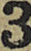3
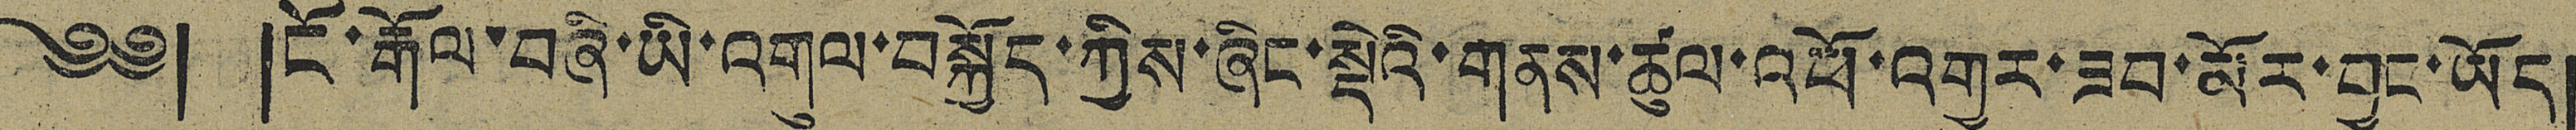༄༅། །ངོ་རྒོལ་བཞི་ཡི་འགུལ་བསྐྱོད་ཀྱིས་ཞིང་སྡེའི་གནས་ཚུལ་འཕོ་འགྱུར་ཟབ་མོར་བྱུང་ཡོད།
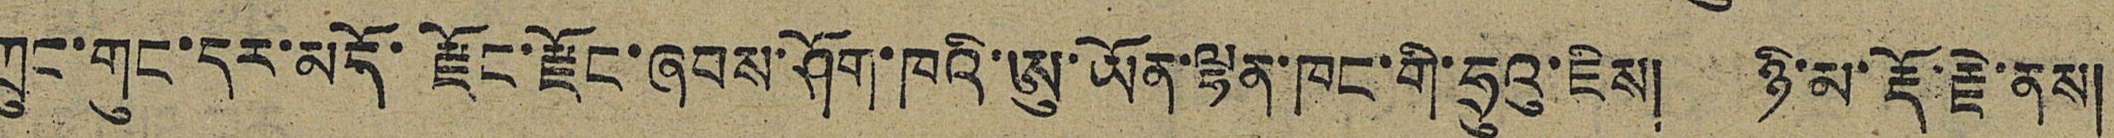ཀྲུང་གུང་དར་མདོ་རྫོང་རྫོང་ཞབས་ཤོག་ཁའི་ཨུ་ཡོན་ལྷན་ཁང་གི་ཧྲུའུ་ཇིས། མི་མ་རྡོ་རྗེ་ནས།
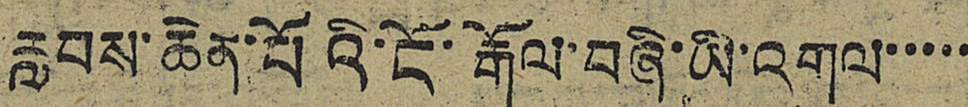རླབས་ཆེན་པོའི་ངོ་རྒོལ་བཞི་ཡི་འགུལ་་་་་
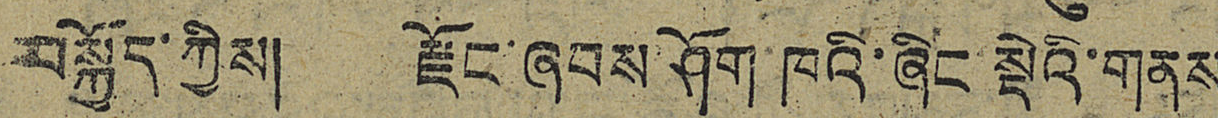བསྐྱོད་ཀྱི། རྫོང་ཞབས་ཤོག་ཁའི་ཞིང་སྡེའི་གནས
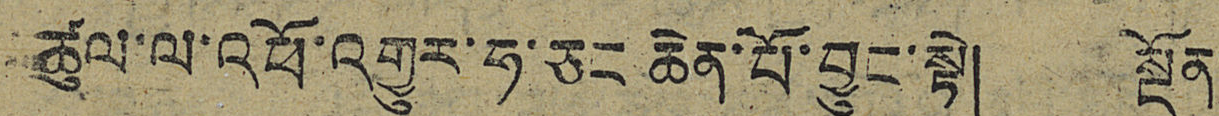ཚུལ་ལ་འཕོ་འགྱུར་ཧ་ཅང ཆེན་པོ་བྱུང་སྟེ། སྔོན་
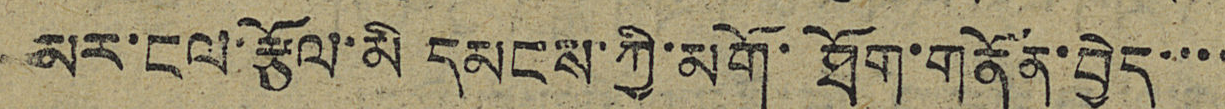མར་ངལ་རྩོལ་མི དམངས་ཀྱི་མགོ་ཐོག་གནོན་བྱེད་་་་
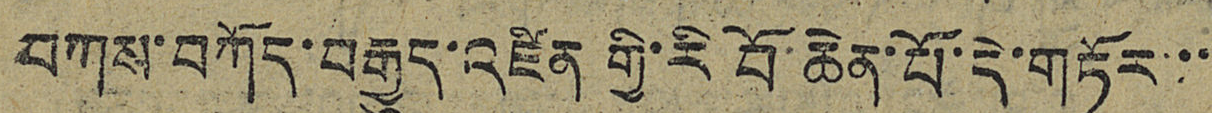བཀས་བཀོད་བརྒྱུད་འཛིན་གྱི་རི བོ་ཆེན་པོ་དེ་གཏོར་་
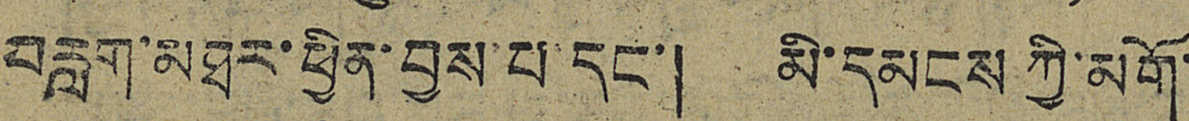བརླག་མཐར་ཕྱིན་བྱས་པ་དང་། མི་དམངས ཀྱི་མགོ་
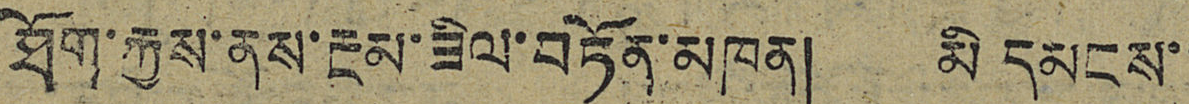ཐོག་རྐྱས་ནས་རྔམ་ཟིལ་བཏོན་མཁན། མི དམངས་་
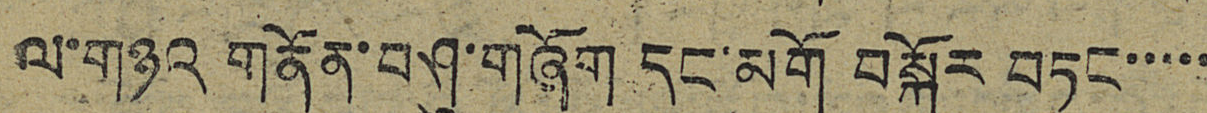ལ་གཉའ གནོན་བཤུ་གཞོག དང་མགོ བསྐོར བཏང་་་་་
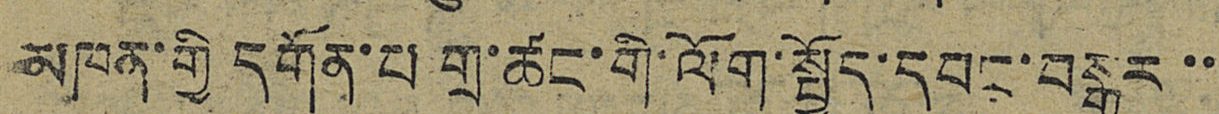མཁན་གྱི དགོན་པ གྲ་ཚང་གི་འོག་སྤྱོད་དབང་བསྒྱུར་་
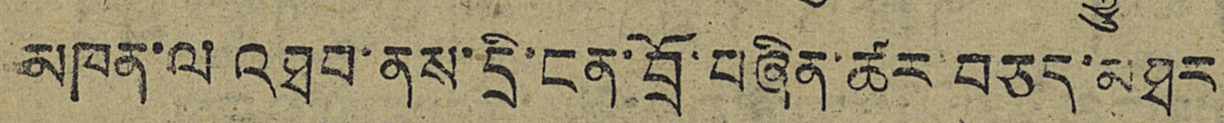མཁན་ལ འཐབ་ནས་དྲི་ངན་བྲོ་བཞིན་ཚར་བཅད་མཐར
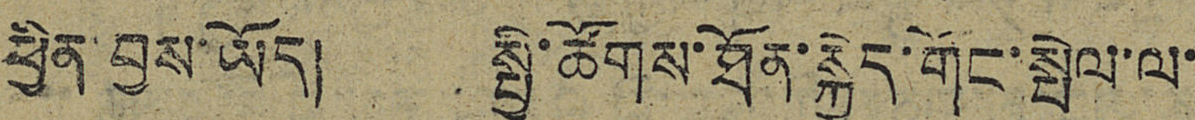ཕྱིན་བྱས་ཡོད། སྤྱི་ཚོགས་ཐོན་སྐྱེད་གོང་སྤེལ་ལ་
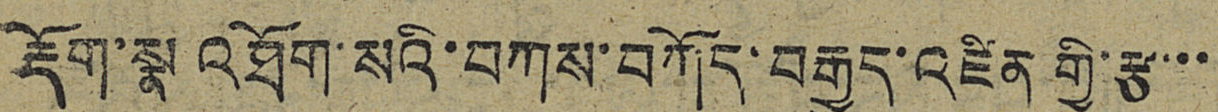རྡོག་སྣ འཐོག་སའི་བཀས་བཀོད་བརྒྱུད་འཛིན གྱི་རྩ་་་
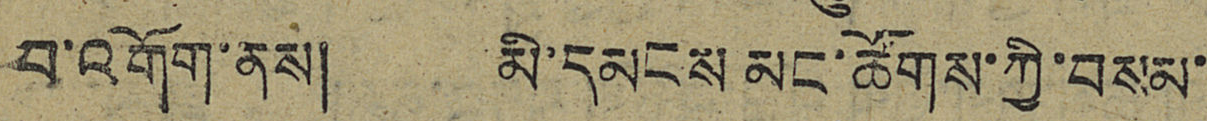བ་འགོག་ནས། མི་དམངས་མང་ཚོགས་ཀྱི་བསམ་
